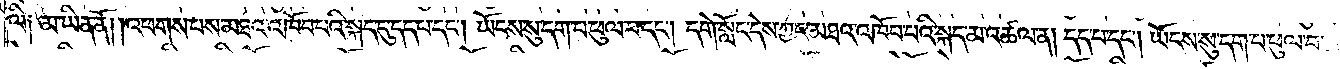ལི༑ མ་ཡིན་ནོ། །འཕགས་པས་མཐའ་འཁོབ་པའི་སྐད་དུ་དད་པ་དང༌། ཡོངས་སུ་དག་པ་ཕུལ་བ་དང༌། དགེ་སློང་དེས་ཀྱང་མཐའ་འཁོབ་པའི་སྐད་མ་འཚལ་ན། དད་པ་དང༌། ཡོངས་སུ་དག་པ་ཕུལ་བ་
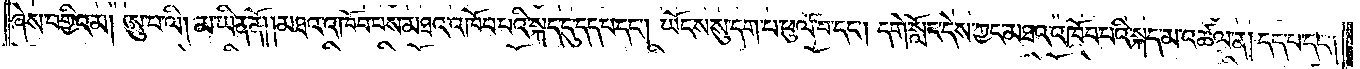ཞེས་བགྱིའམ། ཨུ་པ་ལི། མ་ཡིན་ནོ། །མཐའ་འཁོབ་པས་མཐའ་འཁོབ་པའི་སྐད་དུ་དད་པ་དང༌། ཡོངས་སུ་དག་པ་ཕུལ་བ་དང༌། དགེ་སློང་དེས་ཀྱང་མཐའ་འཁོབ་པའི་སྐད་མ་འཚལ་ན། དད་པ་དང༌།
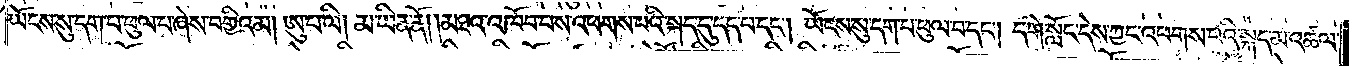ཡོངས་སུ་དག་པ་ཕུལ་བ་ཞེས་བགྱིའམ། ཨུ་པ་ལི། མ་ཡིན་ནོ། །མཐའ་འཁོབ་བས་འཕགས་པའི་སྐད་དུ་དད་པ་དང༌། ཡོངས་སུ་དག་པ་ཕུལ་བ་དང༌། དགེ་སློང་དེས་ཀྱང་འཕགས་པའི་སྐད་མ་འཚལ་
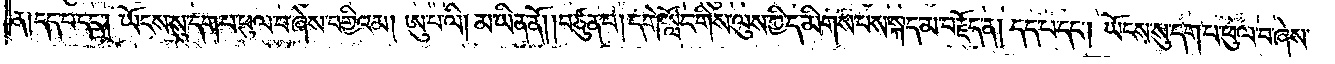ན༑ དད་པ་དང༌། ཡོངས་སུ་དག་པ་ཕུལ་བ་ཞེས་བགྱིའམ། ཨུ་པ་ལི། མ་ཡིན་ནོ། །བཙུན་པ། དགེ་སློང་གིས་ལུས་ཀྱི་དམིགས་པས་སྐད་མ་བརྗོད་ན། དད་པ་དང༌། ཡོངས་སུ་དག་པ་ཕུལ་བ་ཞེས་
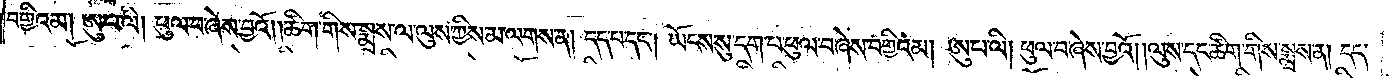བགྱིའམ། ཨུ་པ་ལི། ཕུལ་བ་ཞེས་བྱའོ། །ཚིག་གིས་སྨྲས་ལ་ལུས་ཀྱིས་མ་ལགས་ན། དད་པ་དང༌། ཡོངས་སུ་དག་པ་ཕུལ་བ་ཞེས་བགྱིའམ། ཨུ་པ་ལི། ཕུལ་བ་ཞེས་བྱའོ། །ལུས་དང་ཚིག་གིས་སྨྲས་ན། དད་
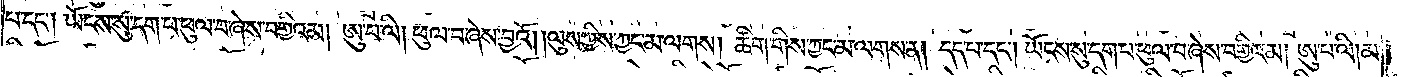པ་དང༌། ཡོངས་སུ་དག་པ་ཕུལ་བ་ཞེས་བགྱིའམ། ཨུ་པ་ལི། ཕུལ་བ་ཞེས་བྱའོ། །ལུས་ཀྱིས་ཀྱང་མ་ལགས། ཚིག་གིས་ཀྱང་མ་ལགས་ན། དད་པ་དང༌། ཡོངས་སུ་དག་པ་ཕུལ་བ་ཞེས་བགྱིའམ། ཨུ་པ་ལི། མ་
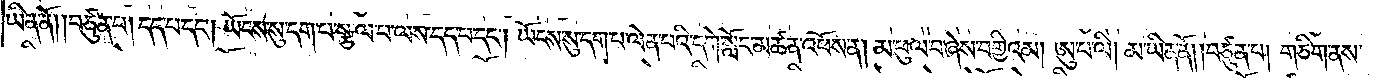ཡིན་ནོ། །བཙུན་པ། དད་པ་དང༌། ཡོངས་སུ་དག་པ་སྩལ་པ་ལས་དད་པ་དང༌། ཡོངས་སུ་དག་པ་ལེན་པའི་དགེ་སློང་མཚན་འཕོས་ན། མ་ཕུལ་བ་ཞེས་བགྱིའམ། ཨུ་པ་ལི། མ་ཡིན་ནོ། །བཙུན་པ། གཅིག་ནས་
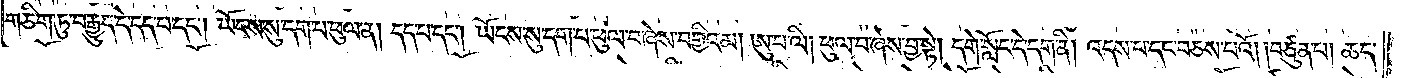གཅིག་ཏུ་བརྒྱུད་དེ་དད་པ་དང༌། ཡོངས་སུ་དག་པ་ཕུལ་ན། དད་པ་དང༌། ཡོངས་སུ་དག་པ་ཕུལ་བ་ཞེས་བགྱིའམ། ཨུ་པ་ལི། ཕུལ་བ་ཞེས་བྱ་སྟེ། དགེ་སློང་དེ་དག་ནི། འདས་པ་དང་བཅས་པའོ། །བཙུན་པ། ཆད་
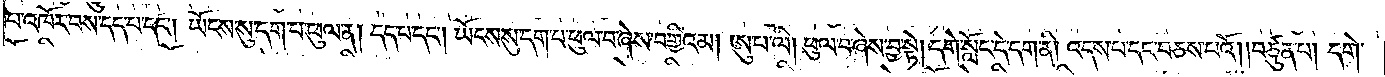པ་འཁོར་བས་དད་པ་དང༌། ཡོངས་སུ་དག་པ་ཕུལ་ན། དད་པ་དང༌། ཡོངས་སུ་དག་པ་ཕུལ་བ་ཞེས་བགྱིའམ། ཨུ་པ་ལི། ཕུལ་བ་ཞེས་བྱ་སྟེ། དགེ་སློང་དེ་དག་ནི། འདས་པ་དང་བཅས་པའོ། །བཙུན་པ། དགེ་
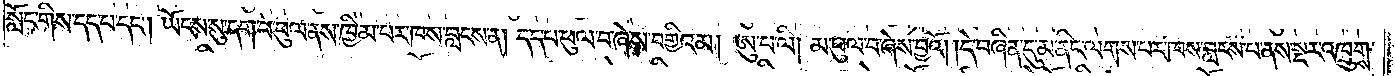སློང་གིས་དད་པ་དང༌། ཡོངས་སུ་དག་པ་ཕུལ་ནས་ཁྱིམ་པར་ཁས་བླངས་ན། དད་པ་ཕུལ་བ་ཞེས་བགྱིའམ། ཨུ་པ་ལི། མ་ཕུལ་བ་ཞེས་བྱའོ། །དེ་བཞིན་དུ་མ་ནིང་ལགས་པར་ཁས་བླངས་པ་ནས་སྔར་འཁྲུགས་
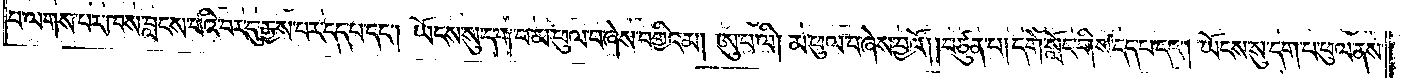པ་ལགས་པར་ཁས་བླངས་པའི་བར་དུ་རྒྱས་པར་དད་པ་དང༌། ཡོངས་སུ་དག་པ་མ་ཕུལ་བ་ཞེས་བགྱིའམ། ཨུ་པ་ལི། མ་ཕུལ་བ་ཞེས་བྱའོ། །བཙུན་པ། དགེ་སློང་གིས་དད་པ་དང༌། ཡོངས་སུ་དག་པ་ཕུལ་ནས་
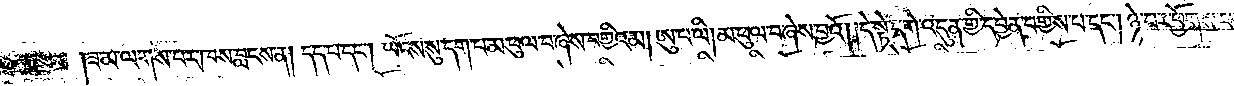།ཟ་མ་ལགས་པར་ཁས་བླངས་ན། དད་པ་དང༌། ཡོངས་སུ་དག་པ་མ་ཕུལ་བ་ཞེས་བགྱིའམ། ཨུ་པ་ལི། མ་ཕུལ་བ་ཞེས་བྱའོ། །དེ་སྟེ་དགེ་འདུན་གྱི་དབྱེན་བགྱིས་པ་དང༌། ཉེ་བར་ཕྱོགས་པ་
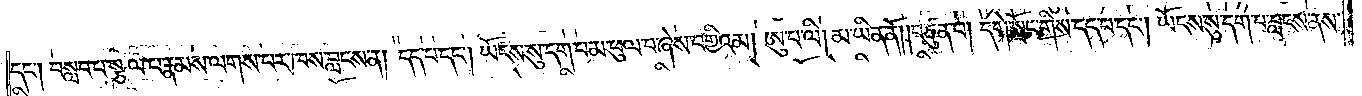དང༌། བསླབ་པ་སྩལ་པ་རྣམས་ལགས་པར་ཁས་བླངས་ན། དད་པ་དང༌། ཡོངས་སུ་དག་པ་མ་ཕུལ་བ་ཞེས་བགྱིའམ། ཨུ་པ་ལི། མ་ཡིན་ནོ། །བཙུན་པ། དགེ་སློང་གིས་དད་པ་དང༌། ཡོངས་སུ་དག་པ་བླངས་ནས་
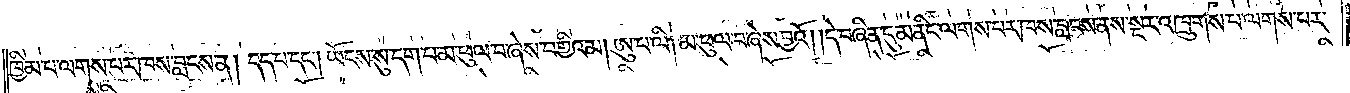ཁྱིམ་པ་ལགས་པར་ཁས་བླངས་ན། དད་པ་དང༌། ཡོངས་སུ་དག་པ་མ་ཕུལ་བ་ཞེས་བགྱིའམ། ཨུ་པ་ལི། མ་ཕུལ་བ་ཞེས་བྱའོ། །དེ་བཞིན་དུ་མ་ནིང་ལགས་པར་ཁས་བླངས་ནས་སྔར་འཁྲུགས་པ་ལགས་པར་
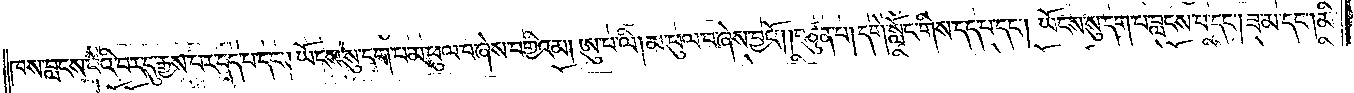ཁས་བླངས་པའི་བར་དུ་རྒྱས་པར་དད་པ་དང༌། ཡོངས་སུ་དག་པ་མ་ཕུལ་བ་ཞེས་བགྱིའམ། ཨུ་པ་ལི། མ་ཕུལ་བ་ཞེས་བྱའོ། །བཙུན་པ། དགེ་སློང་གིས་དད་པ་དང༌། ཡོངས་སུ་དག་པ་བླངས་པ་དང༌། ཟ་མ་དང༌། མི་
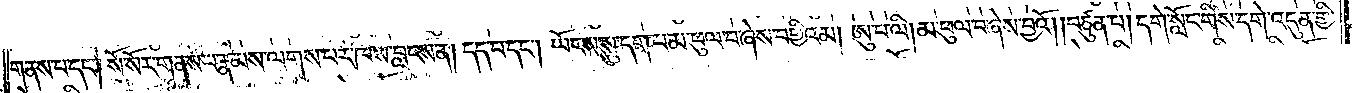གནས་པ་དང༌། སོ་སོར་གནས་པ་རྣམས་ལགས་པར་ཁས་བླངས་ན། དད་པ་དང༌། ཡོངས་སུ་དག་པ་མ་ཕུལ་བ་ཞེས་བགྱིའམ། ཨུ་པ་ལི། མ་ཕུལ་བ་ཞེས་བྱའོ། །བཙུན་པ། དགེ་སློང་གིས་དགེ་འདུན་གྱི་
